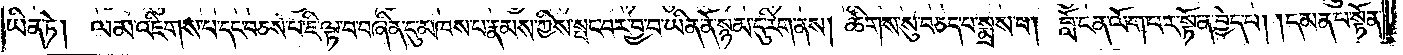ཡིན་ཏེ།  ལམ་འཇིགས་པ་དང་བཅས་པ་ཇི་ལྟ་བ་བཞིན་དུ་མཁས་པ་རྣམས་ཀྱིས་སྤང་བར་བྱ་བ་ཡིན་ནོ་སྙམ་དུ་རིག་ནས། ཚིགས་སུ་བཅད་པ་སྨྲས་པ། བློ་ངན་ལོག་པར་སྟོན་བྱེད་པ། །དམན་པ་སྟོན་
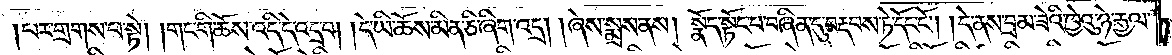།པར་གྲགས་པ་སྟེ། །གང་གི་ཆོས་འདི་དེ་འདྲ་བ། །དེ་ཡི་ཆོས་མིན་ཅི་ཞིག་འདྲ། །ཞེས་སྨྲས་ནས། སྣོད་སྟོང་པ་བཞིན་དུ་བརྡབས་ཏེ་དོང་ངོ༌། །དེ་ནས་བྲམ་ཟེའི་ཁྱེའུ་ཉེ་རྒྱལ་
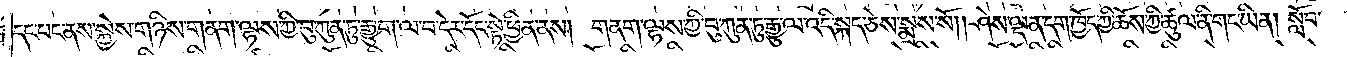དང་པང་ནས་སྐྱེས་གཉིས་གནག་ལྷས་ཀྱི་བུ་ཀུན་ཏུ་རྒྱུ་ག་ལ་བ་དེར་དོང་སྟེ་ཕྱིན་ནས། གནག་ལྷས་ཀྱི་བུ་ཀུན་ཏུ་རྒྱུ་ལ་འདི་སྐད་ཅེས་སྨྲས་སོ། །ཤེས་ལྡན་དག་ཁྱོད་ཀྱི་ཆོས་ཀྱི་ཚུལ་ནི་གང་ཡིན། སློབ་
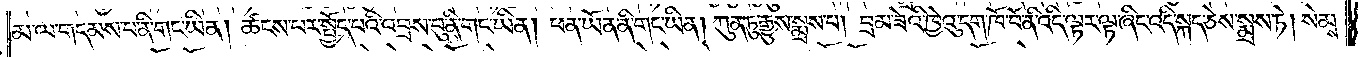མ་ལ་གདམས་པ་ནི་གང་ཡིན། ཚངས་པར་སྤྱོད་པའི་འབྲས་བུ་ནི་གང་ཡིན། ཕན་ཡོད་ནི་གང་ཡིན། ཀུན་ཏུ་རྒྱུས་སྨྲས་པ། བྲམ་ཟེའི་ཁྱེའུ་དག་ཁོ་བོ་ནི་འདི་ལྟར་ལྟ་ཞིང་འདི་སྐད་ཅེས་སྨྲས་ཏེ། སེམས་
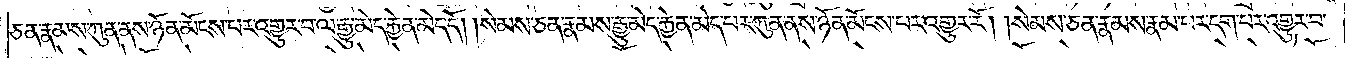ཅན་རྣམས་ཀུན་ནས་ཉོན་མོངས་པར་འགྱུར་བ་ལ་རྒྱུ་མེད་རྐྱེན་མེད་དོ། །སེམས་ཅན་རྣམས་རྒྱུ་མེད་རྐྱེན་མེད་པར་ཀུན་ནས་ཉོན་མོངས་པར་འགྱུར་རོ། །སེམས་ཅན་རྣམས་རྣམ་པར་དག་པར་འགྱུར་བ་
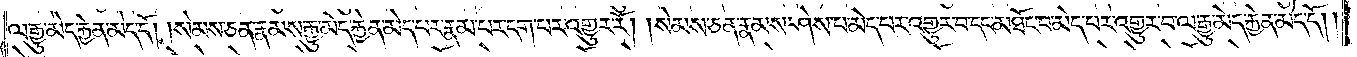ལ་རྒྱུ་མེད་རྐྱེན་མེད་དོ། །སེམས་ཅན་རྣམས་རྒྱུ་མེད་རྐྱེན་མེད་པར་རྣམ་པར་དག་པར་འགྱུར་རོ། །སེམས་ཅན་རྣམས་ཤེས་པ་མེད་པར་འགྱུར་བ་དང་མཐོང་བ་མེད་པར་འགྱུར་བ་ལ་རྒྱུ་མེད་རྐྱེན་མེད་དོ། །
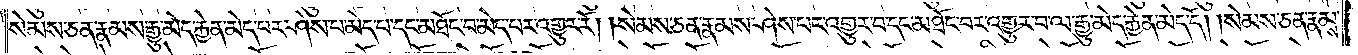སེམས་ཅན་རྣམས་རྒྱུ་མེད་རྐྱེན་མེད་པར་ཤེས་པ་མེད་པ་དང་མཐོང་བ་མེད་པར་འགྱུར་རོ། །སེམས་ཅན་རྣམས་ཤེས་པར་འགྱུར་བ་དང་མཐོང་བར་འགྱུར་བ་ལ་རྒྱུ་མེད་རྐྱེན་མེད་དོ། །སེམས་ཅན་རྣམས་
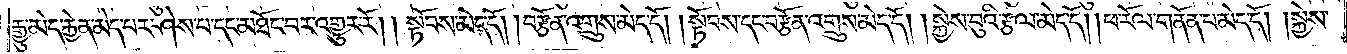རྒྱུ་མེད་རྐྱེན་མེད་པར་ཤེས་པ་དང་མཐོང་བར་འགྱུར་རོ། །སྟོབས་མེད་དོ། །བརྩོན་འགྲུས་མེད་དོ། །སྟོབས་དང་བརྩོན་འགྲུས་མེད་དོ། །སྐྱེས་བུའི་རྩལ་མེད་དོ། །ཕ་རོལ་གནོན་པ་མེད་དོ། །སྐྱེས་
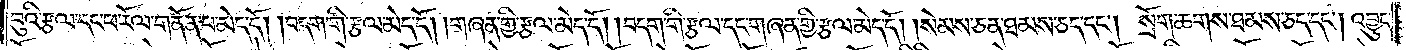བུའི་རྩལ་དང་ཕ་རོལ་གནོན་པ་མེད་དོ། །བདག་གི་རྩལ་མེད་དོ། །གཞན་གྱི་རྩལ་མེད་དོ། །བདག་གི་རྩལ་དང་གཞན་གྱི་རྩལ་མེད་དོ། །སེམས་ཅན་ཐམས་ཅད་དང༌། སྲོག་ཆགས་ཐམས་ཅད་དང༌། འབྱུང་
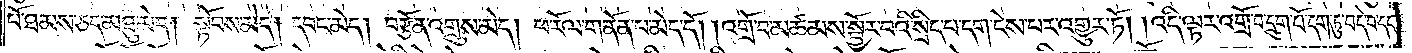པོ་ཐམས་ཅད་མཐུ་མེད། སྟོབས་མེད། དབང་མེད། བརྩོན་འགྲུས་མེད། ཕ་རོལ་གནོན་པ་མེད་དོ། །འགྲོ་བ་མཚམས་སྦྱོར་བའི་སྲིད་པ་དག་ངེས་པར་འགྱུར་ཏོ། །འདི་ལྟར་འགྲོ་བ་དྲུག་པོ་དག་ཏུ་བདེ་བ་དང་
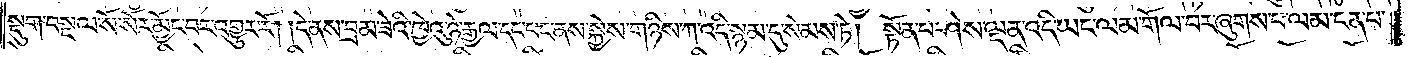སྡུག་བསྔལ་སོ་སོར་མྱོང་བར་འགྱུར་རོ། །དེ་ནས་བྲམ་ཟེའི་ཁྱེའུ་ཉེ་རྒྱལ་དང་པང་ནས་སྐྱེས་གཉིས་ཀ་འདི་སྙམ་དུ་སེམས་ཏེ། སྟོན་པ་ཤེས་ལྡན་འདི་ཡང་ལམ་གོལ་བར་ཞུགས་པ་ལམ་ངན་པ་
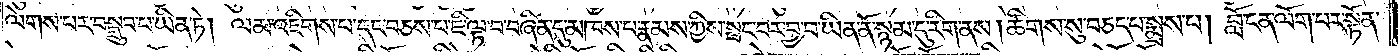ལེགས་པར་བསྒྲུབ་པ་ཡིན་ཏེ། ལམ་འཇིགས་པ་དང་བཅས་པ་ཇི་ལྟ་བ་བཞིན་དུ་མཁས་པ་རྣམས་ཀྱིས་སྤང་བར་བྱ་བ་ཡིན་ནོ་སྙམ་དུ་རིག་ནས། ཚིགས་སུ་བཅད་པ་སྨྲས་པ། བློ་ངན་ལོག་པར་སྟོན་
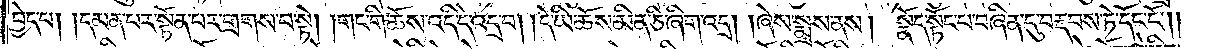བྱེད་པ། །དམན་པར་སྟོན་པར་གྲགས་པ་སྟེ། །གང་གི་ཆོས་འདི་དེ་འདྲ་བ། །དེ་ཡི་ཆོས་མིན་ཅི་ཞིག་འདྲ། །ཞེས་སྨྲས་ནས།  སྣོད་སྟོང་པ་བཞིན་དུ་བརྡབས་ཏེ་དོང་ངོ༌༎
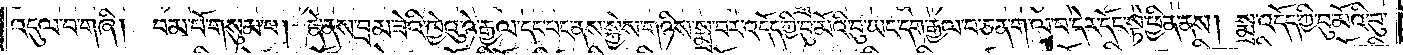འདུལ་བ་གཞི། བམ་པོ་གསུམ་པ། དེ་ནས་བྲམ་ཟེའི་ཁྱེའུ་ཉེ་རྒྱལ་དང་པང་ནས་སྐྱེས་གཉིས་སྨྲ་བར་འདོད་ཀྱི་བུ་མོའི་བུ་ཡང་དག་རྒྱལ་བ་ཅན་ག་ལ་བ་དེར་དོང་སྟེ་ཕྱིན་ནས། སྨྲ་འདོད་ཀྱི་བུ་མོའི་བུ་
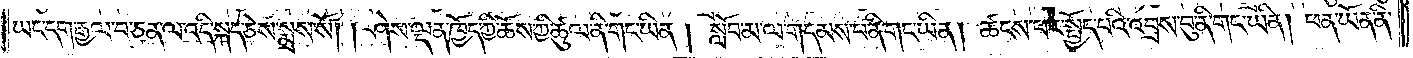ཡང་དག་རྒྱལ་བ་ཅན་ལ་འདི་སྐད་ཅེས་སྨྲས་སོ། །ཤེས་ལྡན་ཁྱོད་ཀྱི་ཆོས་ཀྱི་ཚུལ་ནི་གང་ཡིན། སློབ་མ་ལ་གདམས་པ་ནི་གང་ཡིན། ཚངས་པར་སྤྱོད་པའི་འབྲས་བུ་ནི་གང་ཡིན། ཕན་ཡོན་ནི་
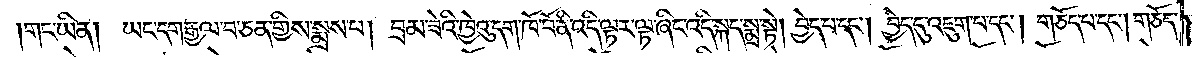གང་ཡིན། ཡང་དག་རྒྱལ་བ་ཅན་གྱིས་སྨྲས་པ། བྲམ་ཟེའི་ཁྱེའུ་དག་ཁོ་བོ་ནི་འདི་ལྟར་ལྟ་ཞིང་འདི་སྐད་སྨྲ་སྟེ། བྱེད་པ་དང༌། བྱེད་དུ་འཇུག་པ་དང༌། གཅོད་པ་དང༌། གཅོད་
